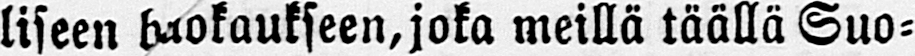liseen huokaukseen,joka meillä täällä Suo-
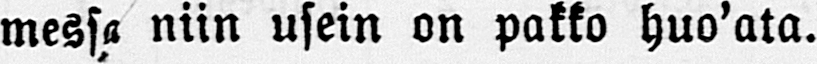messa niin usein on pakko huo'ata.
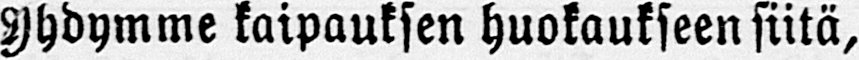yhdymme kaipauksen huokaukseen siitä,
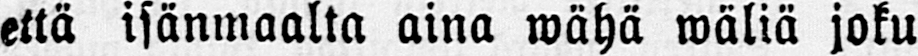että isänmaalta aina wähä wäliä joku
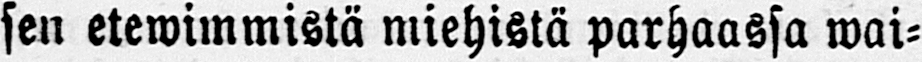sen etewimmistä miehistä parhaassa wai-
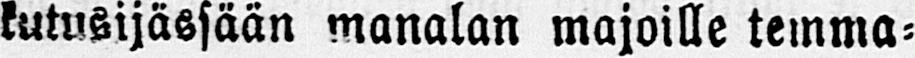kutusijässään manalan majoille temma-
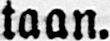taan.
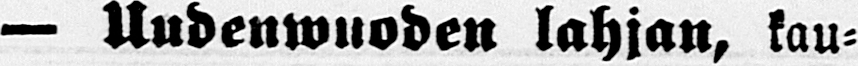— Uudenwuoden lahjan, kau-
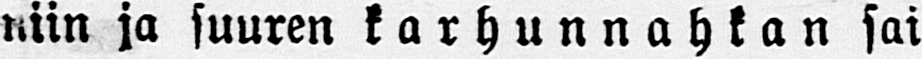niin ja suuren karhunnahkan sai
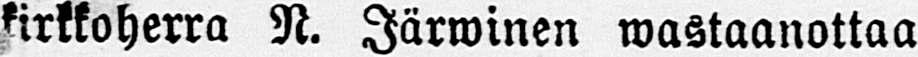kirkkoherra N. Järwinen wastaanottaa
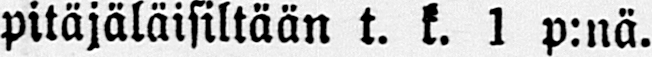pitäjäläisiltään t. k. 1 p:nä.
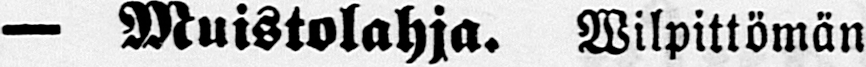— Muistolahja. Wilpittömän
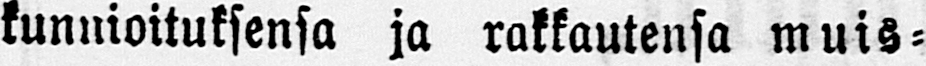kunnioituksensa ja rakkautensa muis-
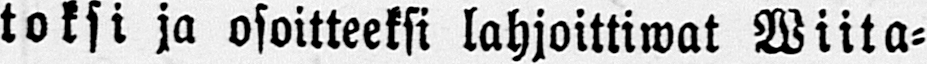toksi ja osoitteeksi lahjoittiwat Wiita-
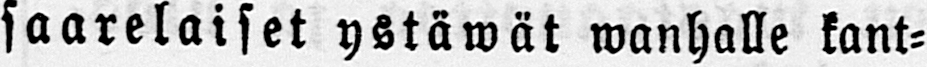saarelaiset ystäwät wanhalle kant-
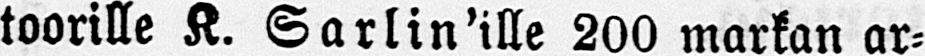toorille K. Sarlin'ille 200 markan ar-
